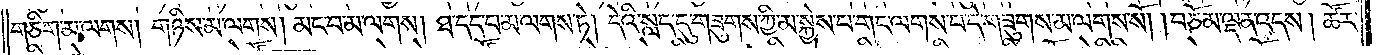གཅིག་མ་ལགས། གཉིས་མ་ལགས། མང་བ་མ་ལགས། ཐ་དད་པ་མ་ལགས་ཏེ། དེའི་སླད་དུ་གཟུགས་ཀྱི་མ་སྐྱེས་པ་གང་ལགས་པ་དེ་གཟུགས་མ་ལགས་སོ། །བཅོམ་ལྡན་འདས། ཚོར་
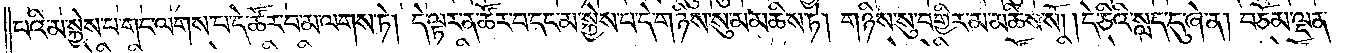བའི་མ་སྐྱེས་པ་གང་ལགས་པ་དེ་ཚོར་བ་མ་ལགས་ཏེ། དེ་ལྟར་ན་ཚོར་བ་དང་མ་སྐྱེས་པ་དེ་གཉིས་སུ་མ་མཆིས་ཏེ། གཉིས་སུ་བགྱིར་མ་མཆིས་སོ། །དེ་ཅིའི་སླད་དུ་ཞེ་ན། བཅོམ་ལྡན་
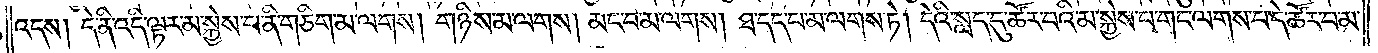འདས། དེ་ནི་འདི་ལྟར་མ་སྐྱེས་པ་ནི་གཅིག་མ་ལགས། གཉིས་མ་ལགས། མང་བ་མ་ལགས། ཐ་དད་པ་མ་ལགས་ཏེ། དེའི་སླད་དུ་ཚོར་བའི་མ་སྐྱེས་པ་གང་ལགས་པ་དེ་ཚོར་བ་མ་
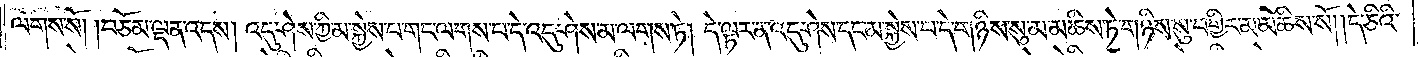ལགས་སོ། །བཅོམ་ལྡན་འདས། འདུ་ཤེས་ཀྱི་མ་སྐྱེས་པ་གང་ལགས་པ་དེ་འདུ་ཤེས་མ་ལགས་ཏེ། དེ་ལྟར་ན་འདུ་ཤེས་དང་མ་སྐྱེས་པ་དེ་གཉིས་སུ་མ་མཆིས་ཏེ་གཉིས་སུ་བགྱིར་མ་མཆིས་སོ། །དེ་ཅིའི་
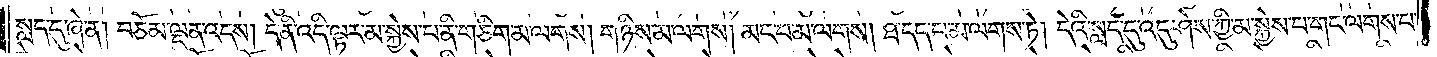སླད་དུ་ཞེ་ན། བཅོམ་ལྡན་འདས། དེ་ནི་འདི་ལྟར་མ་སྐྱེས་པ་ནི་གཅིག་མ་ལགས། གཉིས་མ་ལགས། མང་བ་མ་ལགས། ཐ་དད་པ་མ་ལགས་ཏེ། དེའི་སླད་དུ་འདུ་ཤེས་ཀྱི་མ་སྐྱེས་པ་གང་ལགས་པ་
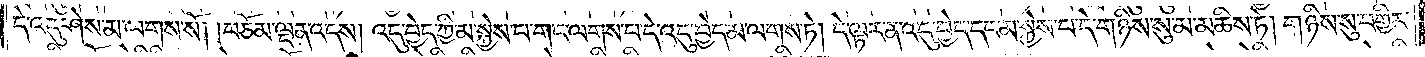དེ་འདུ་ཤེས་མ་ལགས་སོ། །བཅོམ་ལྡན་འདས། འདུ་བྱེད་ཀྱི་མ་སྐྱེས་པ་གང་ལགས་པ་དེ་འདུ་བྱེད་མ་ལགས་ཏེ། དེ་ལྟར་ན་འདུ་བྱེད་དང་མ་སྐྱེས་པ་དེ་གཉིས་སུ་མ་མཆིས་ཏེ། གཉིས་སུ་བགྱིར་
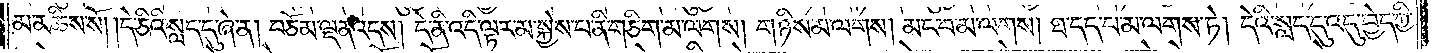མ་མཆིས་སོ། །དེ་ཅིའི་སླད་དུ་ཞེ་ན། བཅོམ་ལྡན་འདས། དེ་ནི་འདི་ལྟར་མ་སྐྱེས་པ་ནི་གཅིག་མ་ལགས། གཉིས་མ་ལགས། མང་བ་མ་ལགས། ཐ་དད་པ་མ་ལགས་ཏེ། དེའི་སླད་དུ་འདུ་བྱེད་ཀྱི་
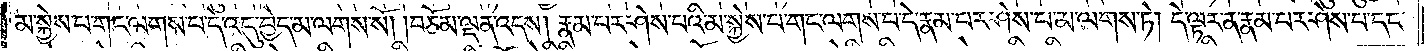མ་སྐྱེས་པ་གང་ལགས་པ་དེ་འདུ་བྱེད་མ་ལགས་སོ། །བཅོམ་ལྡན་འདས། རྣམ་པར་ཤེས་པའི་མ་སྐྱེས་པ་གང་ལགས་པ་དེ་རྣམ་པར་ཤེས་པ་མ་ལགས་ཏེ། དེ་ལྟར་ན་རྣམ་པར་ཤེས་པ་དང་
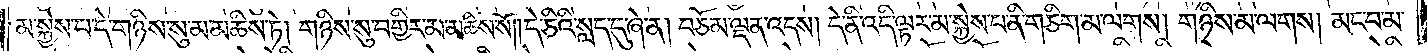མ་སྐྱེས་པ་དེ་གཉིས་སུ་མ་མཆིས་ཏེ། གཉིས་སུ་བགྱིར་མ་མཆིས་སོ། །དེ་ཅིའི་སླད་དུ་ཞེ་ན། བཅོམ་ལྡན་འདས། དེ་ནི་འདི་ལྟར་མ་སྐྱེས་པ་ནི་གཅིག་མ་ལགས་གཉིས་མ་ལགས། མང་བ་མ་
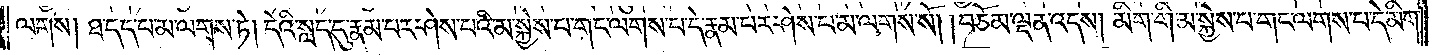ལགས། ཐ་དད་པ་མ་ལགས་ཏེ། དེའི་སླད་དུ་རྣམ་པར་ཤེས་པའི་མ་སྐྱེས་པ་གང་ལགས་པ་དེ་རྣམ་པར་ཤེས་པ་མ་ལགས་སོ། །བཅོམ་ལྡན་འདས། མིག་གི་མ་སྐྱེས་པ་གང་ལགས་པ་དེ་མིག་
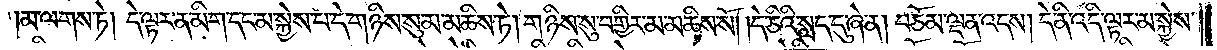མ་ལགས་ཏེ། དེ་ལྟར་ན་མིག་དང་མ་སྐྱེས་པ་དེ་གཉིས་སུ་མ་མཆིས་ཏེ། གཉིས་སུ་བགྱིར་མ་མཆིས་སོ། དེ་ཅིའི་སླད་དུ་ཞེ་ན། བཅོམ་ལྡན་འདས། དེ་ནི་འདི་ལྟར་མ་སྐྱེས་
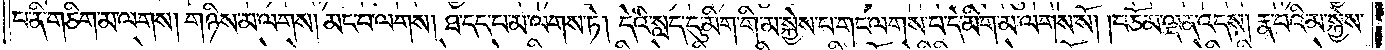པ་ནི་གཅིག་མ་ལགས། གཉིས་མ་ལགས། མང་བ་མ་ལགས། ཐ་དད་པ་མ་ལགས་ཏེ། དེའི་སླད་དུ་མིག་གི་མ་སྐྱེས་པ་གང་ལགས་པ་དེ་མིག་མ་ལགས་སོ། བཅོམ་ལྡན་འདས། རྣ་བའི་མ་སྐྱེས་
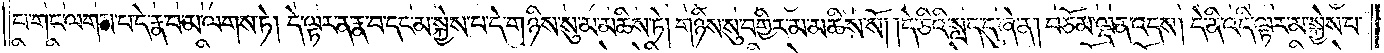པ་གང་ལགས་པ་དེ་རྣ་བ་མ་ལགས་ཏེ། དེ་ལྟར་ན་རྣ་བ་དང་མ་སྐྱེས་པ་དེ་གཉིས་སུ་མ་མཆིས་ཏེ། གཉིས་སུ་བགྱིར་མ་མཆིས་སོ། །དེ་ཅིའི་སླད་དུ་ཞེ་ན། བཅོམ་ལྡན་འདས། དེ་ནི་འདི་ལྟར་མ་སྐྱེས་པ་
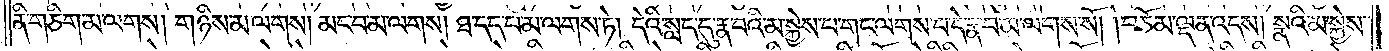ནི་གཅིག་མ་ལགས། གཉིས་མ་ལགས། མང་བ་མ་ལགས། ཐ་དད་པ་མ་ལགས་ཏེ། དེའི་སླད་དུ་རྣ་བའི་མ་སྐྱེས་པ་གང་ལགས་པ་དེ་རྣ་བ་མ་ལགས་སོ། །བཅོམ་ལྡན་འདས། སྣའི་མ་སྐྱེས་
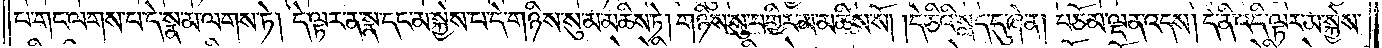པ་གང་ལགས་པ་དེ་སྣ་མ་ལགས་ཏེ། དེ་ལྟར་ན་སྣ་དང་མ་སྐྱེས་པ་དེ་གཉིས་སུ་མ་མཆིས་ཏེ། གཉིས་སུ་བགྱིར་མ་མཆིས་སོ། །དེ་ཅིའི་སླད་དུ་ཞེ་ན། བཅོམ་ལྡན་འདས། དེ་ནི་འདི་ལྟར་མ་སྐྱེས་
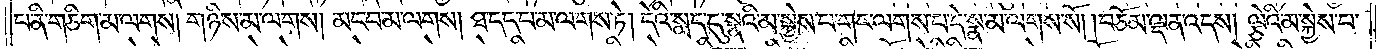པ་ནི་གཅིག་མ་ལགས། གཉིས་མ་ལགས། མང་བ་མ་ལགས། ཐ་དད་པ་མ་ལགས་ཏེ། དེའི་སླད་དུ་སྣའི་མ་སྐྱེས་པ་གང་ལགས་པ་དེ་སྣ་མ་ལགས་སོ། །བཅོམ་ལྡན་འདས། ལྕེའི་མ་སྐྱེས་པ་
